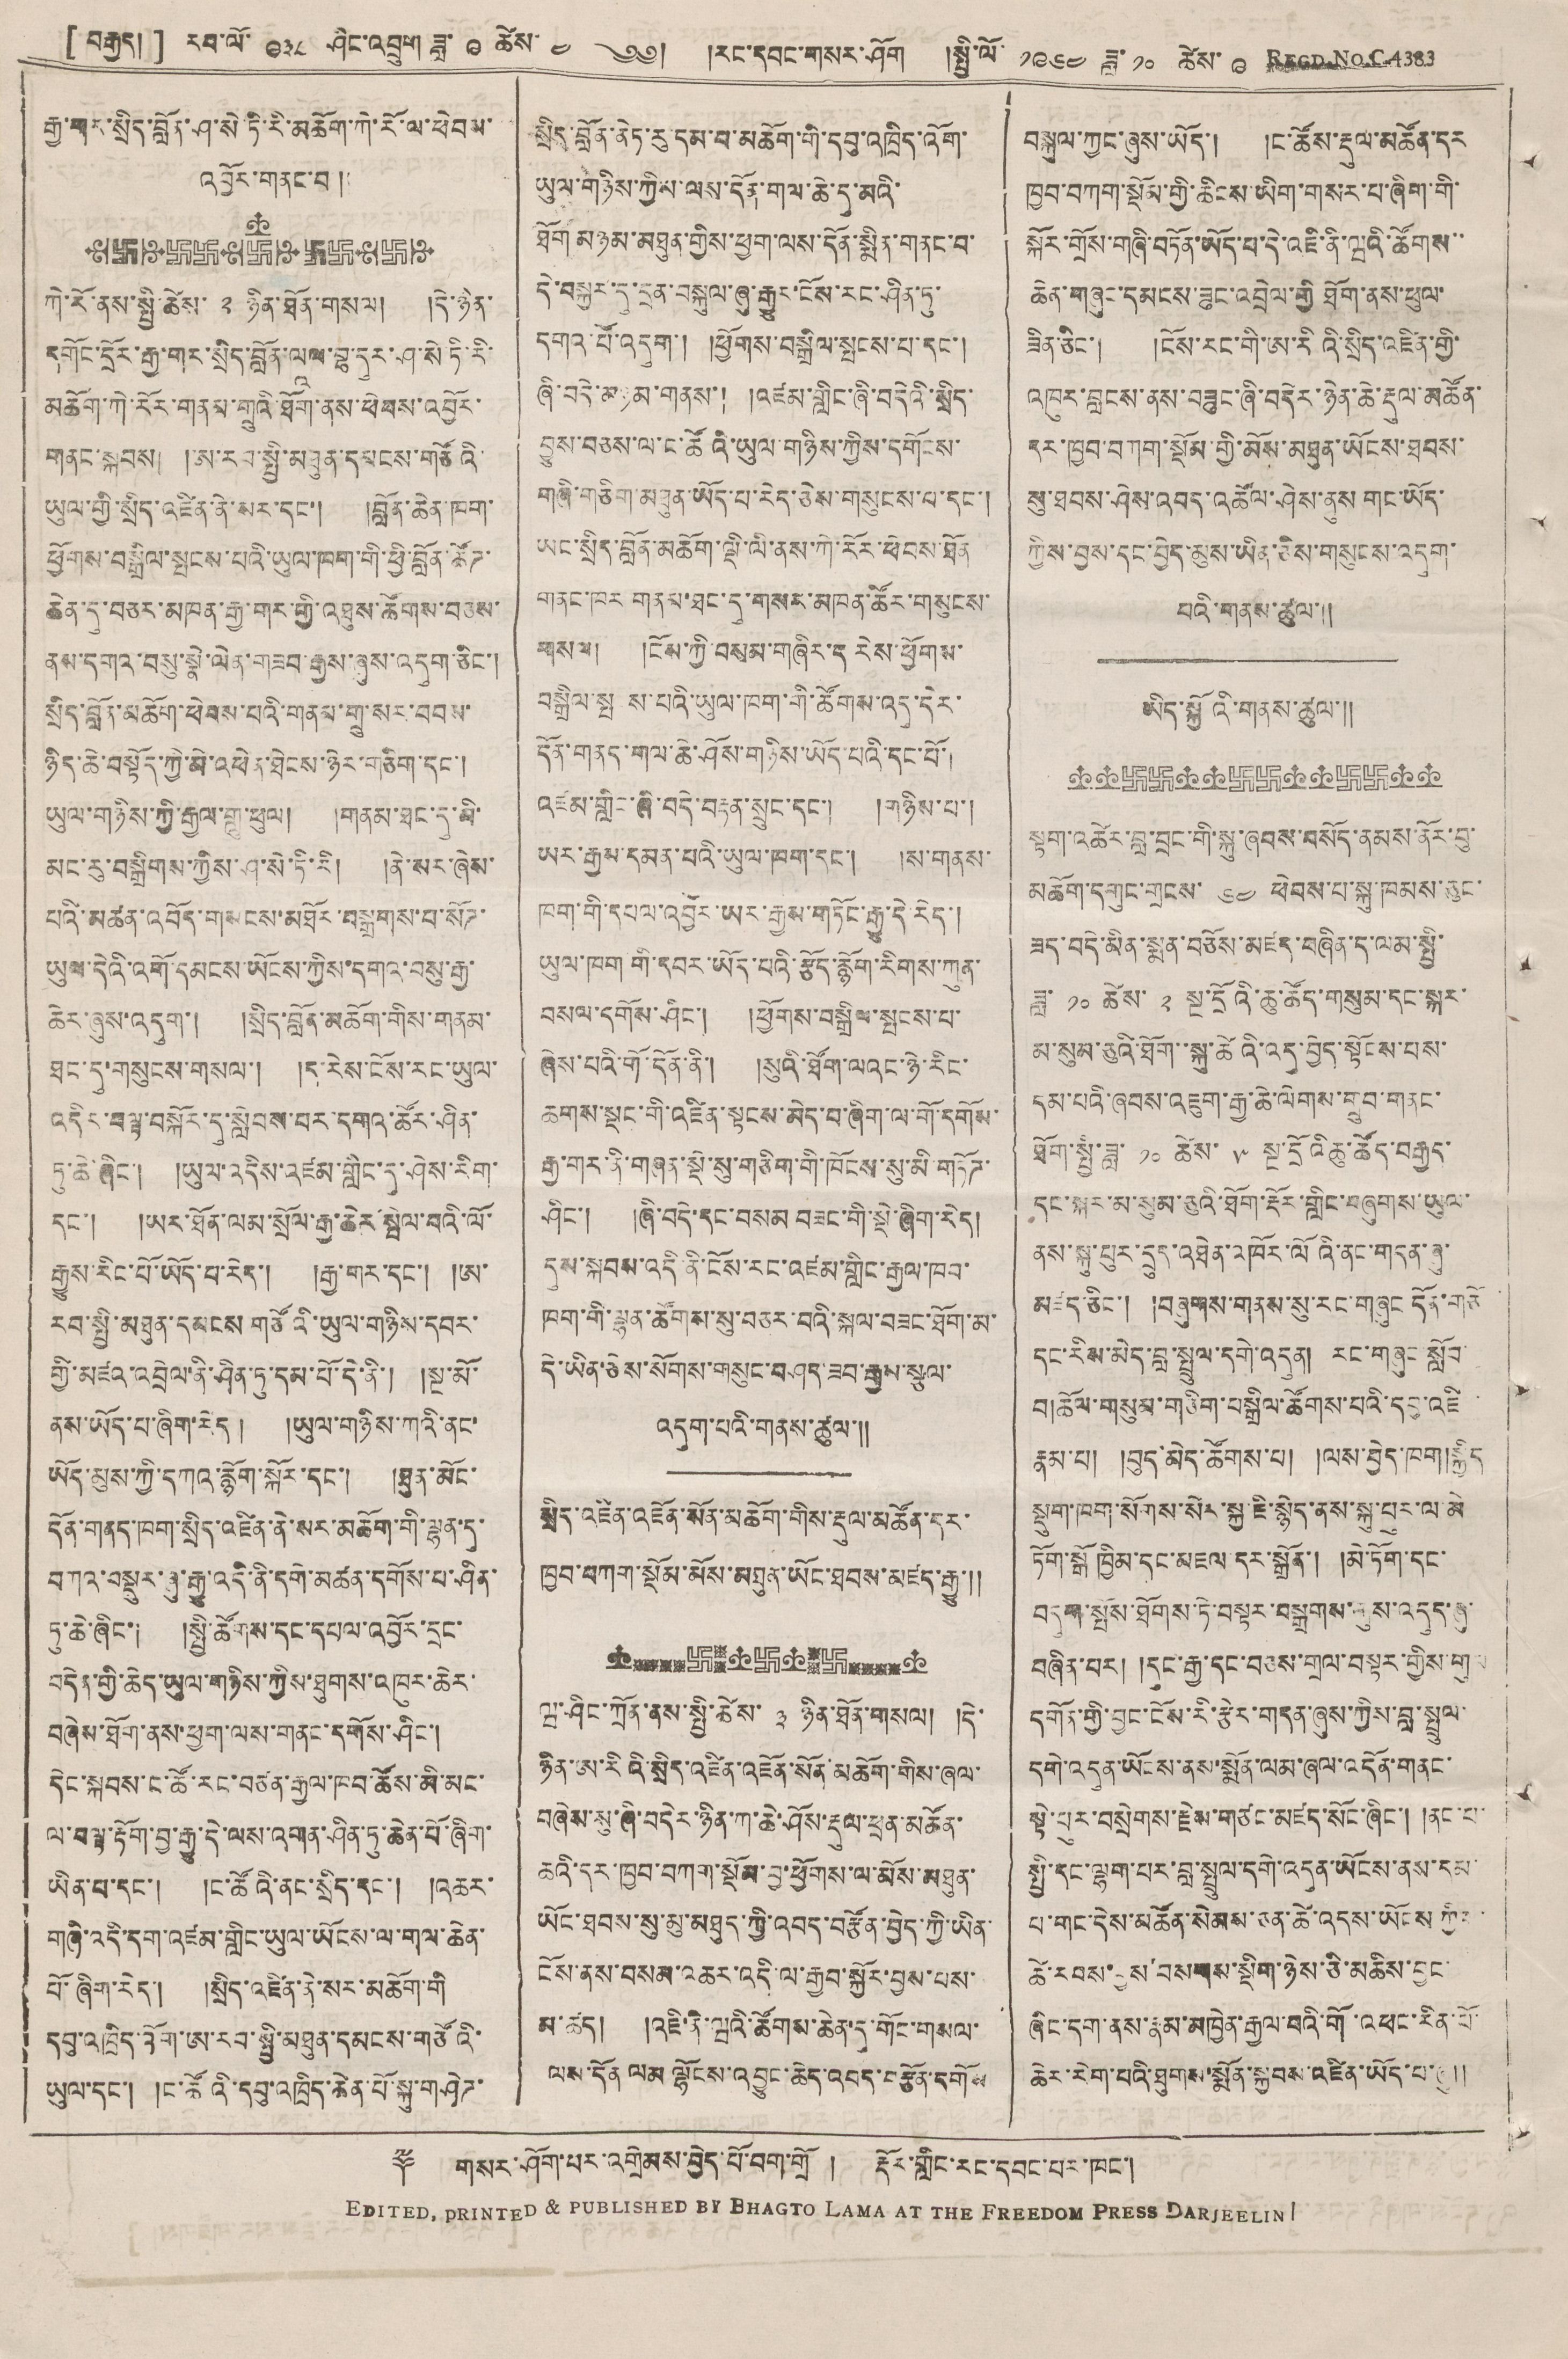[ བརྒྱད། ] རབ་ལོ་ ༩༣༨ ཤིང་འབྲུག་ ཟླ་ ༩ ཚེས ༤ ༄༅། །རང་དབང་གསར་ཤོག །སྤྱི་ལོ་ ༡༩༦༤ ཟླ་ ༡༠ ཚེས་ ༩ REGD. NO. C4383
རྒྱ་གར་སྲིད་བློན་ཤ་སེ་ཏི་རི་མཆོག་ཀེ་རོ་ལ་ཕེབས་
འབྱོར་གནང་བ །
ཀེ་རོ་ནས་སྤྱི་ཚེས་ ༢ ཉིན་ཐོན་གསལ། །དེ་ཉིན་
དགོང་དྲོར་རྒྱ་གར་སྲིད་བློན་ལཱལ་བྷ་དུར་ཤ་སེ་ཏི་རི་
མཆོག་ཀེ་རོར་གནམ་གྲུའི་ཐོག་ནས་ཕེབས་འབྱོར་
གནང་སྐབས། །ཨ་རབ་སྤྱི་མཐུན་དམངས་གཙོའི་
ཡུལ་གྱི་སྲིད་འཛིན་ནེ་སར་དང་། །བློན་ཆེན་ཁག་
ཕྱོགས་བསྒྲིལ་སྤངས་པའི་ཡུལ་ཁག་གི་ཕྱི་བློན་ཚོཊ་
ཆེན་དུ་བཅར་མཁན་རྒྱ་གར་གྱི་འཐུས་ཚོགས་བཅས་
ནས་དགའ་བསུ་སྣེ་ལེན་གཟབ་རྒྱས་ཞུས་འདུག་ཅིང་།
སྲིད་བློན་མཆོག་ཕེབས་པའི་གནས་གྲུ་སར་བབས་
ཉིད་ཆེ་བསྟོད་ཀྱི་མེ་འཕེན་ཐེངས་ཉེར་གཅིག་དང་།
ཡུལ་གཉིས་ཀྱི་རྒྱལ་གླུ་ཕུལ། །གནམ་ཐང་དུ་མི་
མང་རུ་བསྒྲིགས་ཀྱིས་ཤ་སེ་ཏི་རི། །ནེ་སར་ཞེས་
པའི་མཚན་འབོད་གསངས་མཐོར་བསྒྲགས་པ་སོཊ་
ཡུལ་དེའི་འགོ་དམངས་ཡོངས་ཀྱིས་དགའ་བསུ་རྒྱ་
ཆེར་ཞུས་འདུག་། །སྲིད་བློན་མཆོག་གིས་གནམ་
ཐང་དུ་གསུངས་གསལ། །ད་རེས་ངོས་རང་ཡུལ་
འདིར་བལྟ་བསྐོར་དུ་སླེབས་པར་དགའ་ཚོར་ཤིན་
ཏུ་ཆེ་ཞིང་། །ཡུལ་འདིས་འཛམ་གླིང་དུ་ཤེས་རིག་
དང་། །ཡར་ཐོན་ལམ་སྲོལ་རྒྱ་ཆེར་སྤེལ་བའི་ལོ་
རྒྱུས་རིང་པོ་ཡོད་པ་རེད་། །རྒྱ་གར་དང་། །ཨ་
རབ་སྤྱི་མཐུན་དམངས གཙོའི་ཡུལ་གཉིས་དབར་
གྱི་མཛའ་འབྲེལ་ནི་ཤིན་ཏུ་དམ་པོ་དེ་ནི་། །སྔ་མོ་
ནས་ཡོད་པ་ཞིག་རེད། །ཡུལ་གཉིས་ཀའི་ནང་
ཡོད་མུས་ཀྱི་དཀའ་རྙོག་སྐོར་དང་། །ཐུན་མོང་
དོན་གནད་ཁག་སྲིད་འཛིན་ནེ་སར་མཆོག་གི་ལྷག་དུ་
བཀའ་བསྡུར་ཞུ་རྒྱུ་འདི་ནི་དགེ་མཚན་དགོས་པ་ཤིན་
ཏུ་ཆེ་ཞིང་། །སྤྱི་ཚོགས་དང་དཔལ་འབྱོར་དྲང་
བདེན་གྱི་ཆེད་ཡུལ་གཉིས་ཀྱིས་ཐུགས་འཁུར་ཆེར་
བཞེས་ཐོག་ནས་ཕྱག་ལས་གནང་དགོས་ཤིང་།
དེང་སྐབས་ང་ཚོ་རང་བཙན་རྒྱལ་ཁབ་ཚོས་མི་མང་
ལ་བལྟ་རྟོག་བྱ་རྒྱུ་དེ་ལས་འགན་ཤིན་ཏུ་ཆེན་པོ་ཞིག་
ཡིན་པ་དང་། །ང་ཚོའི་ནང་སྲིད་དང་། །འཆར་
གཞི་འདི་དག་འཛམ་གླིང་ཡུལ་སོངས་ལ་གལ་ཆེན་
པོ་ཞིག་རེད། །སྲིད་འཛིན་ནེ་སར་མཆོག་གི་
དབུ་འཁྲིད་འོག་ཨ་རབ་སྤྱི་མཐུན་དམངས་གཙོའི་
ཡུལ་དང་། །ང་ཚོའི་དབུ་འཁྲིད་ཆེན་པོ་སྐུ་གཤེཊ་
སྲིད་བློན་ནེཏ་རུ་དམ་པ་མཆོག་གི་དབུ་འཁྲིད་འོག་
ཡུལ་གཉིས་ཀྱིས་ལས་དོན་གལ་ཆེ་དུ་མའི་
ཐོག་མཉམ་མཐུན་གྱིས་ཕྱག་ལས་དོན་སྨིན་གནང་བ་
དེ་བསྐྱར་དུ་དྲན་བསྐུལ་ཞུ་རྒྱུར་ངོས་རང་ཤིན་ཏུ་
དགའ་པོ་འདུག་། །ཕྱོགས་བསྒྲིལ་སྤངས་པ་དང་།
ཞི་བདེ་མཉམ་གནས་། །འཛམ་གླིང་ཞི་བདེའི་སྲིད་
བྱུས་བཅས་ལ་ང་ཚོའི་ཡུལ་གཉིས་ཀྱིས་དགོངས་
གཞི་གཅིག་མཐུན་ཡོད་པ་རེད་ཅེས་གསུངས་པ་དང་།
ཡང་སྲིད་བློན་མཆོག་ལྡི་ལི་ནས་ཀེ་རོར་ཕེབས་ཐོན
གནང་ཁར གནམ་ཐང་དུ་གསར་མཁན་ཚོར་གསུངས་
གསལ། །ངོས་གྱི་བསམ་གཞིར་ད རེས་ཕྱོགས་
བསྒྲིག་སྤ ས་པའི་ཡུལ་ཁག་གི་ཚོགས་འདུ་དེར་
དོན་གནད་གལ་ཆེ་ཤོས་གཉིས་ཡོད་པའི་དང་པོ་།
འཛམ་གླིང་ཞི་བདེ་བརྟན་སྲུང་དང་། །གཉིས་པ་།
ཡར་རྒྱས་དམན་པའི་ཡུལ་ཁག་དང་། །ས་གནས་
ཁག་གི་དཔལ་འབྱོར་ཡར་རྒྱས་གཏོང་རྒྱུ་དེ་རེད་།
ཡུལ་ཁག གི་དབར་ཡོད་པའི་རྩོད་རྙོག་རིགས་ཀུན་
བསལ་དགོས་ཤིང་། །ཕྱོགས་བསྒྲིལ་སྤངས་པ་
ཞེས་པའི་གོ་དོན་ནི་། སུའི་ཐོག་ལའང་ཉེ་རིང་
ཆགས་སྡང་གི་འཛིན་སྟངས་མེད་བ་ཞིག་ལ་གོ་དགོས་
རྒྱ་གར་ནི་གཞས་སྡེ་སུ་གཅིག་གི་ཁོངས་སུ་མི་གཏོཊ་
ཤིང་། །ཞི་བདེ་དང་བསམ བཟང་གི་སྡེ་ཞིག་རེད།
དུས་སྐབས་འདི་ནི་ངོས་འཛམ་གླིང་རྒྱལ་ཁབ་
ཁག་གི་ལྷག་ཚོགས་སུ་བཅར་བའི་སྐལ་བཟང་ཐོག་མ་
དེ་ཡིན་ཅེས་སོགས་གསུང་བཤད་ཟབ་རྒྱས་སྩལ་
འདུག་པའི་གནས་ཚུལ་།།
སྲིད་འཛིན་འཇོན་སོན་མཆོག་གིས་རྡུལ་མཚོན་དར་
ཁྱབ་བཀག་སྡོམ་མོས་མཐུན་ཡོང་ཐབས་མཛད་རྒྱུ་།།
ཝ་ཤིང་ཀྲོན་ནས་སྤྱི་ཚེས་ ༣ ཉིན་ཐོན་གསལ། །དེ་
ཉིན་ཨ་རིའི་སྲིད་འཛིན་འཇོན་སོན་མཆོག་གིས་ཞལ་
བཞེས་སུ་ཞི་བདེར་ཉིན་ཀ་ཆེ་ཤོས་རྡུལ་ཕྲན་མཚོན་
ཆའི་དར་ཁྱབ་བཀག་སྡོམ་བྱ་ཕྱོགས་ལ་མོས་མཐུན་
ཡོང་ཐབས་སུ་མུ་མཐུན་ཀྱི་འབད་བརྩོད་བྱེད་ཀྱི་ཡིན་
ངོས་ནས་བསམ་འཆར་འདི་ལ་རྒྱབ་སྐྱོར་བྱས་པས་
མ་ཚད། །འཇི་ནེ་ཝའི་ཚོགས་ཆེན་དུ་གོང་གསལ་
ལས་དོན ལམ་ལྷོངས་འབྱུང་ཆེད་འབད་བརྩོན་དགོས
བསྐུལ་ཀྱང་ཞུས་ཡོད་། །ང་ཚོས་རྡུལ་མཚོན་དར
ཁྱབ་བཀག་སྡོམ་གྱི་ཆིངས་ཡིག་གསར་པ་ཞིག་གི་
སྐོར་གྲོས་གཞི་བཏོན་ཡོད་པ་དེ་འཇི་ནི་ཝའི་ཚོགས་་
ཆེན་གཞུང་དམངས་ཟུང་འབྲེལ་གྱི ཐོག་ནས་ཕུལ་
ཟིན་ཅིང་། །ངོས་རང་གི་ཨ་རིའི་སྲིད་འཛིན་གྱི་
འཁུར་བླངས་ནས་བཟུང་ཞི་བདེར་ཉིན་ཆེ་རྡུལ་མཚོན་
དར་ཁྱབ་བཀག་སྡོམ་གྱི་མོས་མཐུན་ཡོངས་ཐབས་
སུ་ཐབས་ཤེས་འབད་འཚོལ་ཤེས་ནུས གང་ཡོད་
ཀྱིས་བྱས་དང་བྱེད་མུས་ཡིན་ཅེས་གསུངས་འདུག་
པའི་གནས་ཚུལ་།།
ཡིད་སྐྱོའི་གནས་ཚུལ་།།
སྟག་འཚེར་བླ་བྲང་གི་སྐུ་ཞབས་བསོད་ནམས་ནོར་བུ་
མཆོག་དགུང་གྲངས་ ༦༤ ཕེབས་པ་སྐུ་ཁམས་ཅུང་
ཟད་བདེ་མིན་སྨན་བཅོས་མཛད་བཞིན་ད་ལམ་སྤྱི་
ཟླ་ ༡༠ ཚེས་ ༢ སྔ་དྲོའི་ཆུ་ཚོད་གསུམ་དང་སྐར་
མ་སུམ་ཅུའི་ཐོག་་སྐུ་ཚེའི་འདུ་བྱེད་སྟོངས་པས་
དམ་པའི་ཞབས་འཇུག་རྒྱ་ཆེ་ལེགས་གྲུབ་གནང་
ཐོག་སྤྱི་ཟླ་ ༡༠ ཚེས་ ༥ སྔ་དྲོའིཆུ་ཚོད་བརྒྱད་
དང་སྐར་མ་སུམ་ཅུའི་ཐོག་རྡོར་གླིང་བཞུགས་ཡུལ་
ནས་སྐུ་པུར་དྲུད་འཐེན་འཁོར་ལོའི་ནང་གདན་ཞུ་
མཛད་ཅིང་། །བཞུགས་གནས་སུ་རང་གཞུང དོན་གཙོ
དང་རིས་མེད་བླ་སྤྲུལ་དགེ་འདུན། རང་གཞུང་སློབ་
བ།ཆོལ་གསུམ་གཅིག་བསྒྲིལ་ཚོགས་པའི་དབུ་འཇི
རྣམ་པ། །བུད་མེད་ཚོགས་པ། །ལས་བྱེད་ཁག།སྐྱིད་
སྡུག་ཁག་སོགས་སེར་སྐྱ་ཇི་སྙེད་ནས་སྐུ་པུར་ལ་མེ་
ཏོག་སྒོ ཁྱིམ་དང་མཇལ་དར་སྒྲོན་། །མེ་ཏོག་དང་
བདུག་སྤོས་ཐོགས་ཏེ་བསྟན་བསྒྲགས་གུས་འདུད་ཞུ་
བཞིན་པར། །དུང་རྒྱ་དང་བཅས་གྲལ་བསྟར་གྱིས་གུས
དགོན་གྱི་བྱང་ངོས་རི་རྩེར་གདན་ཞུས་ཀྱིས་བླ་སྤྲུལ་
དགེ་འདུན་ཡོངས་ནས་སྨོན་ལམ་ཞལ་འདོན་གནང་
སྟེ་པུར་བསྲེགས་རྗེས་གཙང་མཛད་སོང་ཞིང་། །ནང་པ་
སྤྱི་དང་ལྷག་པར་བླ་སྤྲུལ་དགེ་འདུན་ཡོངས་ནས་དམ་
པ་གང་དེས་མཚོན་སེམས་ཅན་ཚེ་འདས་ཡོངས ཀྱིས་
ཚེ་རབས་བྱས་བསགས་སྡིག་ཉེས་ཅི་མཆིས་བྱང་
ཞིང་དག་ནས་རྣམ་མཁྱེན་རྒྱལ་བའི་གོ་འཕང་རིན་པོ་
ཆེར་རིག་པའི་ཐུགས་སྨོན་སྐྱབས་འཛིན་ཡོད་པ་ཞུ།།
༈ གསར་ཤོག་པར་འགྲེམས་བྱེད་པོ་བག་གྲོ ། རྡོར་གླིང་དབང་པར་ཁང་།
EDITED, PRINTED & PUBLISHED BY BHAGTO LAMA AT THE FREEDOM PRESS DARJEELING
